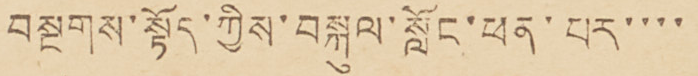བསྔགས་སྟོད་ཀྱིས་བསྐུལ་སློང་ཕན་པར་་་་
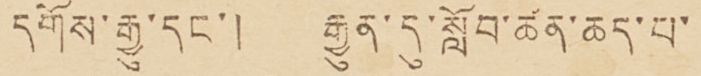དགོས་རྒྱུ་དང་། རྒྱུན་དུ་སློབ་ཚན་ཆད་པ་
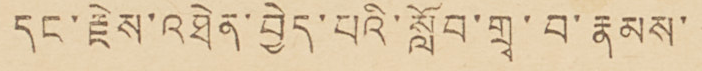དང་རྗེས་འཐེན་བྱེད་པའི་སློབ་གྲྭ་བ་རྣམས་
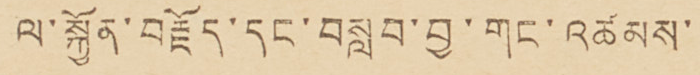ལ་སྐྱོན་བརྗོད་དང་བསླབ་བྱ་གང་འཚམས་
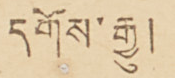དགོས་རྒྱུ།
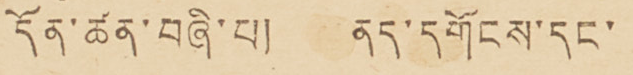དོན་ཚན་བཞི་པ། ནད་དགོངས་དང་
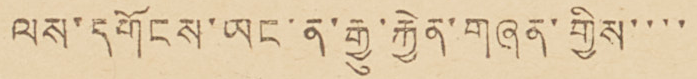ལས་དགོངས་ཡང་ན་རྒྱུ་རྐྱེན་གཞན་གྱིས་་་་
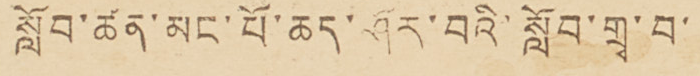སློབ་ཚན་མང་པོ་ཆད་ཤོར་བའི་སློབ་གྲྭ་བ་
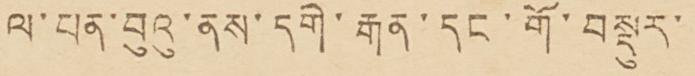ལ་པན་བུའུ་ནས་དགེ་རྒན་དང་གོ་བསྡུར་
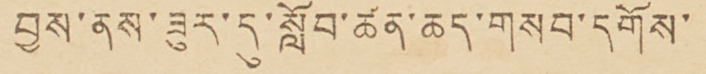བྱས་ནས་ཟུར་དུ་སློབ་ཚན་ཆད་གསབ་དགོས་
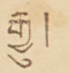རྒྱུ།
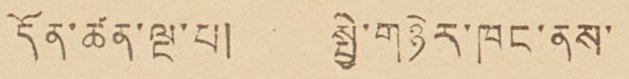དོན་ཚན་ལྔ་པ། སྤྱི་གཉེར་ཁང་ནས་
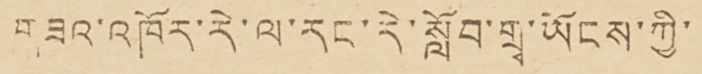གཟའ་འཁོར་རེ་ལ་རང་རེ་སློབ་གྲྭ་ཡོངས་ཀྱི་
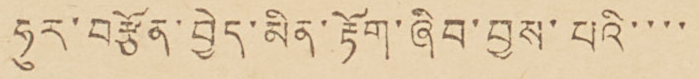ཧུར་བརྩོན་བྱེད་མིན་རྟོག་ཞིབ་བྱས་པའི་་་་
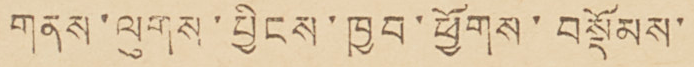གནས་ལུགས་པྱིངས་ཁྱབ་ཕྱོགས་བསྡོམས་
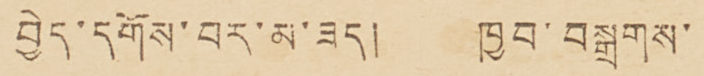བྱེད་དགོས་པར་མ་ཟད། ཁྱབ་བསྒྲགས་
